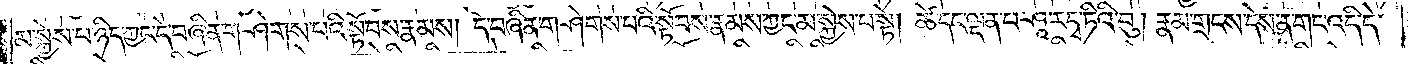མ་སྐྱེས་པ་ཉིད་ཀྱང་དེ་བཞིན་གཤེགས་པའི་སྟོབས་རྣམས། དེ་བཞིན་གཤེགས་པའི་སྟོབས་རྣམས་ཀྱང་མ་སྐྱེས་པ་སྟེ། ཚེ་དང་ལྡན་པ་ཤཱ་ར་དྭ་ཏིའི་བུ། རྣམ་གྲངས་དེས་ན་གང་འདི་དེ་
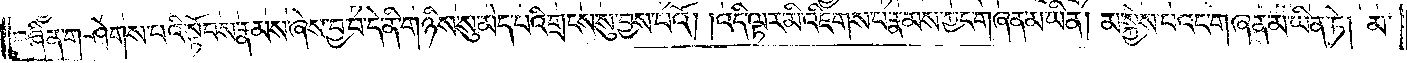བཞིན་གཤེགས་པའི་སྟོབས་རྣམས་ཞེས་བྱ་བ་དེ་ནི་གཉིས་སུ་མེད་པའི་གྲངས་སུ་བྱས་པའོ། །འདི་ལྟར་མི་འཇིགས་པ་རྣམས་ཀྱང་གཞན་མ་ཡིན། མ་སྐྱེས་པའང་གཞན་མ་ཡིན་ཏེ། མ་
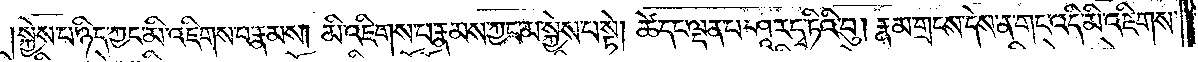སྐྱེས་པ་ཉིད་ཀྱང་མི་འཇིགས་པ་རྣམས། མི་འཇིགས་པ་རྣམས་ཀྱང་མ་སྐྱེས་པ་སྟེ། ཚེ་དང་ལྡན་པ་ཤཱ་ར་དྭ་ཏིའི་བུ། རྣམ་གྲངས་དེས་ན་གང་འདི་མི་འཇིགས་
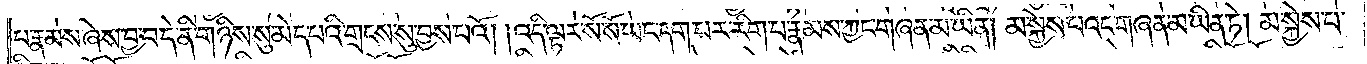པ་རྣམས་ཞེས་བྱ་བ་དེ་ནི་གཉིས་སུ་མེད་པའི་གྲངས་སུ་བྱས་པའོ། །འདི་ལྟར་སོ་སོ་ཡང་དག་པར་རིག་པ་རྣམས་ཀྱང་གཞན་མ་ཡིན། མ་སྐྱེས་པའང་གཞན་མ་ཡིན་ཏེ། མ་སྐྱེས་པ་
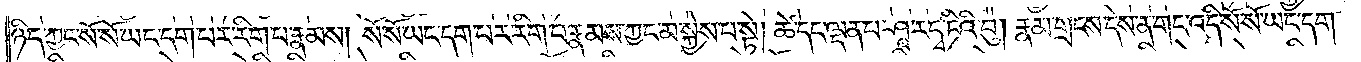ཉིད་ཀྱང་སོ་སོ་ཡང་དག་པར་རིག་པ་རྣམས། སོ་སོ་ཡང་དག་པར་རིག་པ་རྣམས་ཀྱང་མ་སྐྱེས་པ་སྟེ། ཚེ་དང་ལྡན་པ་ཤཱ་ར་དྭ་ཏིའི་བུ། རྣམ་གྲངས་དེས་ན་གང་འདི་སོ་སོ་ཡང་དག་
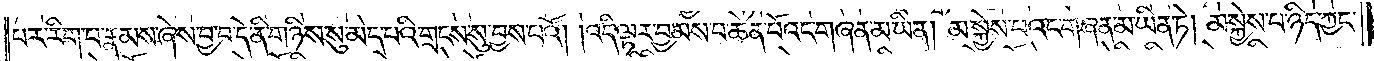པར་རིག་པ་རྣམས་ཞེས་བྱ་བ་དེ་ནི་གཉིས་སུ་མེད་པའི་གྲངས་སུ་བྱས་པའོ། །འདི་ལྟར་བྱམས་པ་ཆེན་པོའང་གཞན་མ་ཡིན། མ་སྐྱེས་པའང་གཞན་མ་ཡིན་ཏེ། མ་སྐྱེས་པ་ཉིད་ཀྱང་
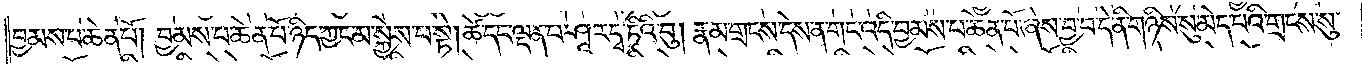བྱམས་པ་ཆེན་པོ། བྱམས་པ་ཆེན་པོ་ཉིད་ཀྱང་མ་སྐྱེས་པ་སྟེ། ཚེ་དང་ལྡན་པ་ཤཱ་ར་དྭ་ཏིའི་བུ། རྣམ་གྲངས་དེས་ན་གང་འདི་བྱམས་པ་ཆེན་པོ་ཞེས་བྱ་བ་དེ་ནི་གཉིས་སུ་མེད་པའི་གྲངས་སུ་
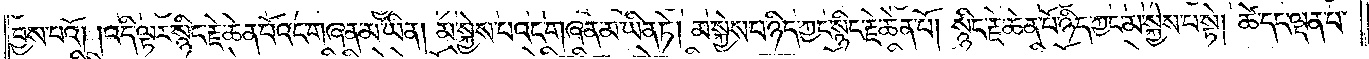བྱས་པའོ། །འདི་ལྟར་སྙིང་རྗེ་ཆེན་པོའང་གཞན་མ་ཡིན། མ་སྐྱེས་པའང་གཞན་མ་ཡིན་ཏེ། མ་སྐྱེས་པ་ཉིད་ཀྱང་སྙིང་རྗེ་ཆེན་པོ། སྙིང་རྗེ་ཆེན་པོ་ཉིད་ཀྱང་མ་སྐྱེས་པ་སྟེ། ཚེ་དང་ལྡན་པ་
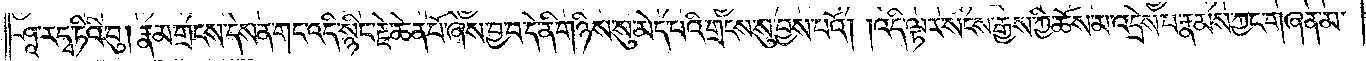ཤཱ་ར་དྭ་ཏིའི་བུ། རྣམ་གྲངས་དེས་ན་གང་འདི་སྙིང་རྗེ་ཆེན་པོ་ཞེས་བྱ་བ་དེ་ནི་གཉིས་སུ་མེད་པའི་གྲངས་སུ་བྱས་པའོ། །འདི་ལྟར་སངས་རྒྱས་ཀྱི་ཆོས་མ་འདྲེས་པ་རྣམས་ཀྱང་གཞན་མ་
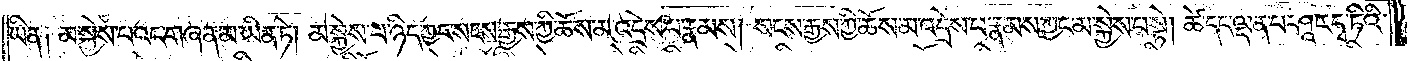ཡིན༏ མ་སྐྱེས་པའང་གཞན་མ་ཡིན་ཏེ། མ་སྐྱེས་པ་ཉིད་ཀྱང་སངས་རྒྱས་ཀྱི་ཆོས་མ་འདྲེས་པ་རྣམས། སངས་རྒྱས་ཀྱི་ཆོས་མ་འདྲེས་པ་རྣམས་ཀྱང་མ་སྐྱེས་པ་སྟེ། ཚེ་དང་ལྡན་པ་ཤཱ་ར་དྭ་ཏིའི་
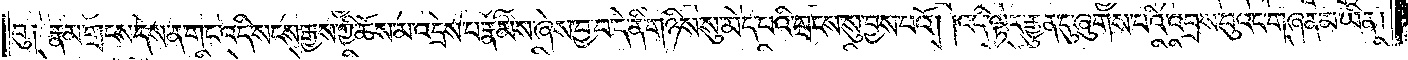བུ༏ རྣམ་གྲངས་དེས་ན་གང་འདི་སངས་རྒྱས་ཀྱི་ཆོས་མ་འདྲེས་པ་རྣམས་ཞེས་བྱ་བ་དེ་ནི་གཉིས་སུ་མེད་པའི་གྲངས་སུ་བྱས་པའོ། །འདི་ལྟར་རྒྱུན་དུ་ཞུགས་པའི་འབྲས་བུའང་གཞན་མ་ཡིན།
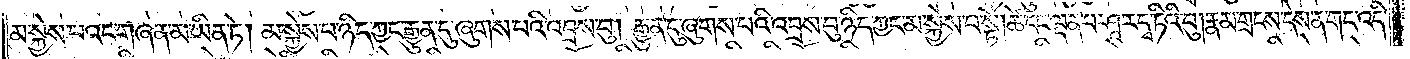མ་སྐྱེས་པའང་གཞན་མ་ཡིན་ཏེ། མ་སྐྱེས་པ་ཉིད་ཀྱང་རྒྱུན་དུ་ཞུགས་པའི་འབྲས་བུ། རྒྱུན་དུ་ཞུགས་པའི་འབྲས་བུ་ཉིད་ཀྱང་མ་སྐྱེས་པ་སྟེ། ཚེ་དང་ལྡན་པ་ཤཱ་ར་དྭ་ཏིའི་བུ། རྣམ་གྲངས་དེས་ན་གང་འདི་
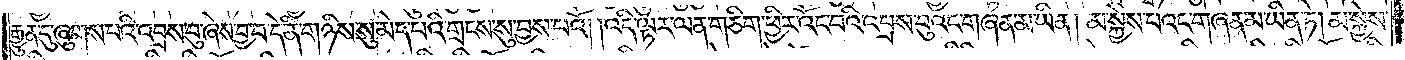རྒྱུན་དུ་ཞུགས་པའི་འབྲས་བུ་ཞེས་བྱ་བ་དེ་ནི་གཉིས་སུ་མེད་པའི་གྲངས་སུ་བྱས་པའོ། །འདི་ལྟར་ལན་ཅིག་ཕྱིར་འོང་བའི་འབྲས་བུའང་གཞན་མ་ཡིན། མ་སྐྱེས་པའང་གཞན་མ་ཡིན་ཏེ། མ་སྐྱེས་
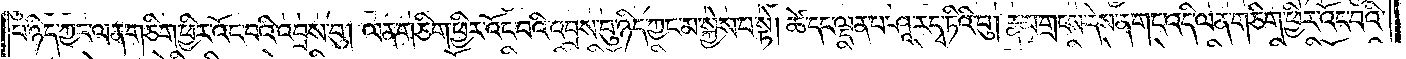པ་ཉིད་ཀྱང་ལན་ཅིག་ཕྱིར་འོང་བའི་འབྲས་བུ། ལན་ཅིག་ཕྱིར་འོང་བའི་འབྲས་བུ་ཉིད་ཀྱང་མ་སྐྱེས་པ་སྟེ། ཚེ་དང་ལྡན་པ་ཤཱ་ར་དྭ་ཏིའི་བུ། རྣམ་གྲངས་དེས་ན་གང་འདི་ལན་ཅིག་ཕྱིར་འོང་བའི་
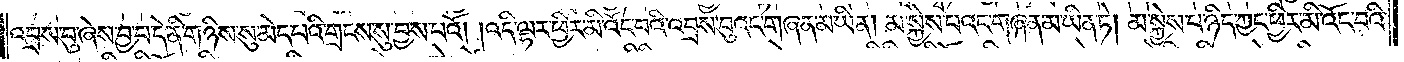འབྲས་བུ་ཞེས་བྱ་བ་དེ་ནི་གཉིས་སུ་མེད་པའི་གྲངས་སུ་བྱས་པའོ། །འདི་ལྟར་ཕྱིར་མི་འོང་བའི་འབྲས་བུའང་གཞན་མ་ཡིན། མ་སྐྱེས་པའང་གཞན་མ་ཡིན་ཏེ། མ་སྐྱེས་པ་ཉིད་ཀྱང་ཕྱིར་མི་འོང་བའི་
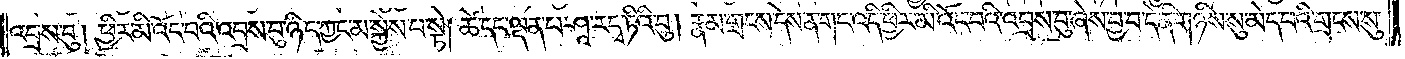འབྲས་བུ། ཕྱིར་མི་འོང་བའི་འབྲས་བུ་ཉིད་ཀྱང་མ་སྐྱེས་པ་སྟེ། ཚེ་དང་ལྡན་པ་ཤཱ་ར་དྭ་ཏིའི་བུ། རྣམ་གྲངས་དེས་ན་གང་འདི་ཕྱིར་མི་འོང་བའི་འབྲས་བུ་ཞེས་བྱ་བ་དེ་ནི་གཉིས་སུ་མེད་པའི་གྲངས་སུ་
